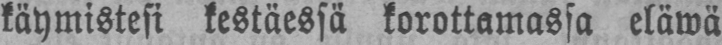käymistesi kestäessä korottamassa eläwä
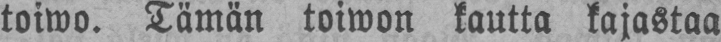toiwo. Tämän toiwon kautta kajastaa
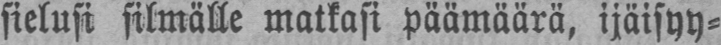sielusi silmälle matkasi päämäärä, ijäisyy-
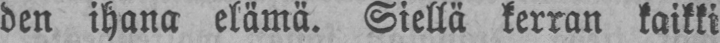den ihana elämä. Siellä kerran kaikki
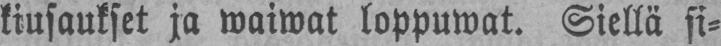kiusaukset ja waiwat loppuwat. Siellä si-
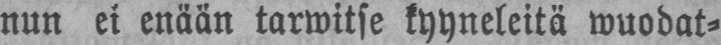nun ei enään tarwitse kyyneleitä wuodat-
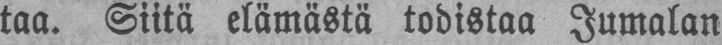taa. Siitä elämästä todistaa Jumalan
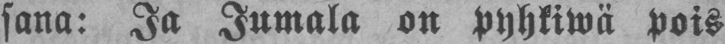sana: Ja Jumala on pyhkiwä pois
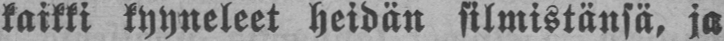kaikki kyyneleet heidän silmistänsä, ja
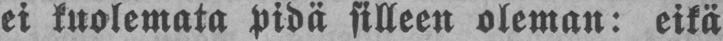ei kuolemata pidä silleen oleman: eikä
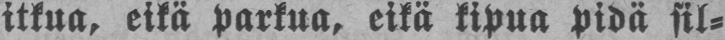itkua, eikä parkua, eikä kipua pidä sil-
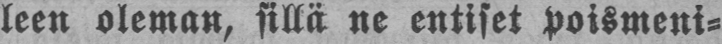leen oleman, sillä ne entiset poismeni-
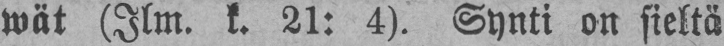wät (Ilm.k.21:4). Synti on sieltä
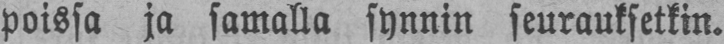poissa ja samalla synnin seurauksetkin.
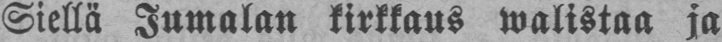Siellä Jumalan kirkkaus walistaa ja
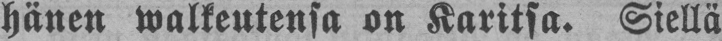hänen walkeutensa on Karitsa. Siellä
